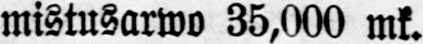mistusarwo 35,000 mk.
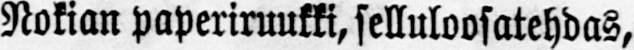Nokian paperiruukki, selluloosatehdas,
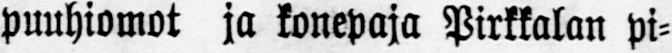puuhiomot ja konepaja Pirkkalan pi-
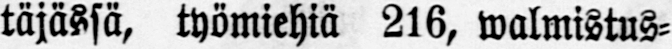täjässä, työmiehiä 216, walmistus-
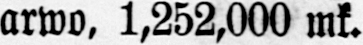arwo. 1,252,000 mk.
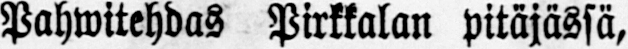Pahwitehdas Pirkkalan pitäjässä,
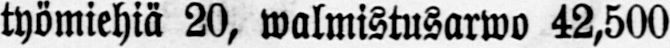työmiehiä 20, walmistusarwo 42,500
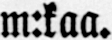m:kaa.
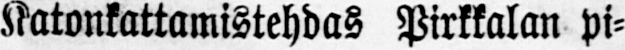Katonkattamistehdas Pirkkalan pi-
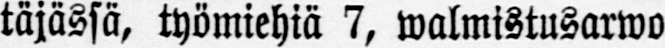täjässä, työmiehiä 7, walmistusarwo
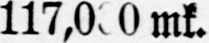117,000 mk.
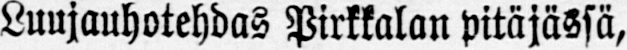Luujauhotehdas Pirkkalan pitäjässä,
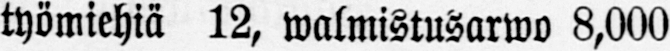työmiehiä 12, walmistusarwo 8,000
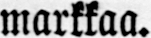markkaa.
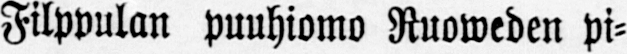Filppulan puuhiomo Ruoweden pi-
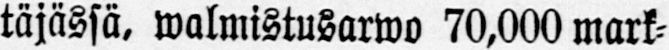täjässä, walmistusarwo 70,000 mark-
